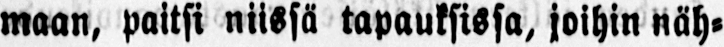maan, paitsi niissä tapauksissa, joihin näh-
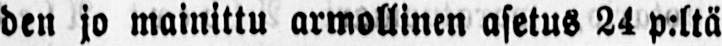den jo mainittu armollinen asetus 24 p:ltä
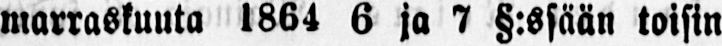marraskuuta l864 6 ja 7 §:ssään toisin
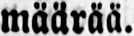määrää.
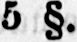5 §.
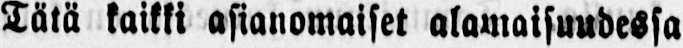Tätä kaikki asianomaiset alamaisuudessa
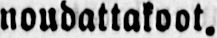noudattakoot.
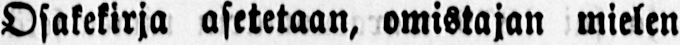Osakekirja asetetaan, omistajan mielen
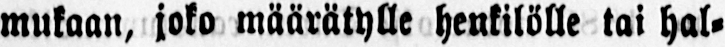mukaan, joko määrätylle henkilölle tai hal-
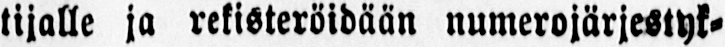tijalle ja rekisteröidään numerojärjestyk-
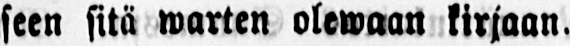seen sitä warten olewaan kirjaan.
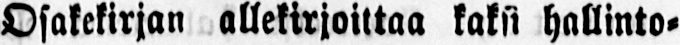Osakekirjan allekirjoittaa kaksi hallinto-
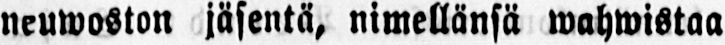neuwoston jäsentä, nimellänsä wahwistaa
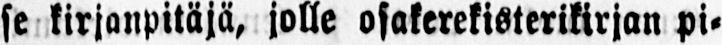se kirjanpitäjä, jolle osakerekisterikirjan pi-
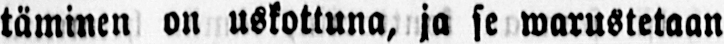tämimen on uskottuna, ja se warustetaan
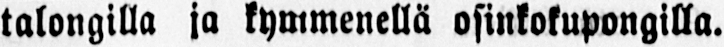talongilla ja kymmenellä osinkokupongilla.
